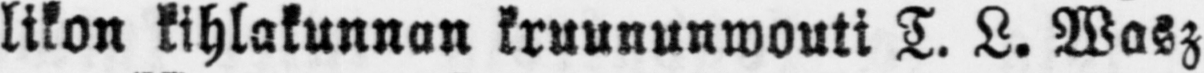likon kihlakunnan kruununwouti T. L. Wasz
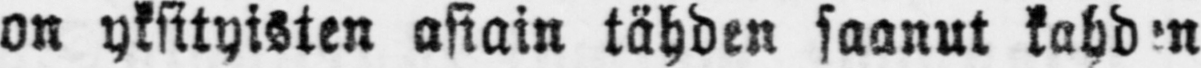on yksityisten asiain tähden saanut kahen
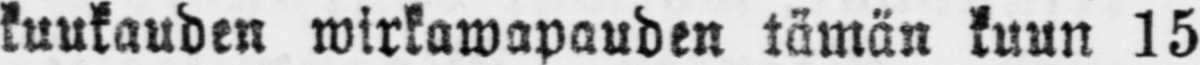kuukauden wirkawapauden tämän kuun 15
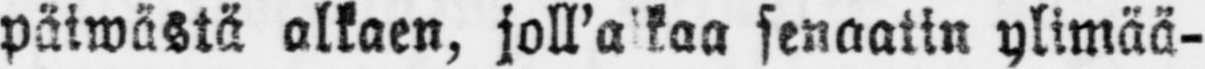päiwästä alkaen, joll'a kaa senaatin ylimää-
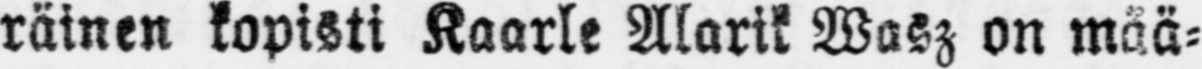räinen kopisti Kaarle Alarik Wasz on mää-
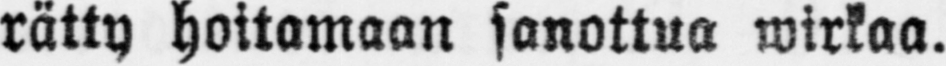rätty hoitamaan sanottua wirkaa.
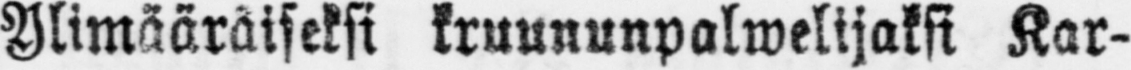Alimääräiseksi kruununpalwelijaksi Kar-
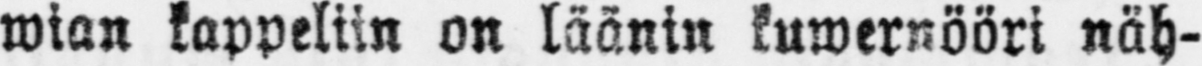wian kappeliin on läänin kuwernööri näh-
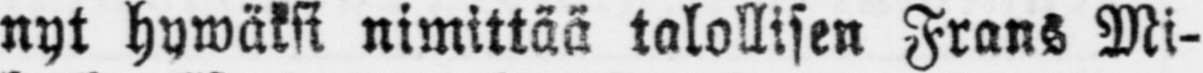nyt hywäksi nimittää talollisen Frans Mi-
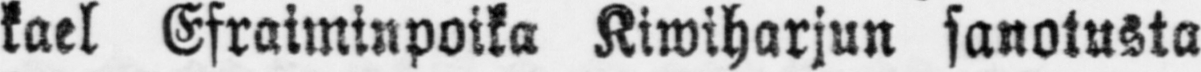kael Efraiminpoika Kiwiharjun sanotusta
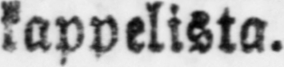kappelista.
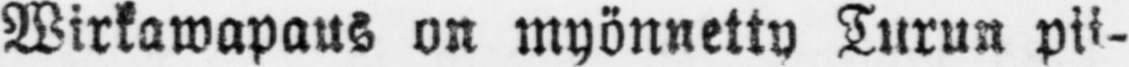Wirkawapaus on myönnetty Turun pii-
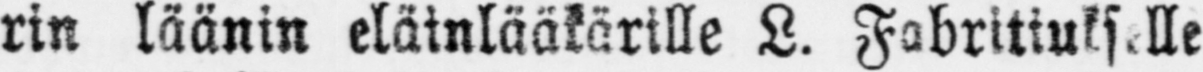rin läänin eläinlääkärille L. Fabritiukselle
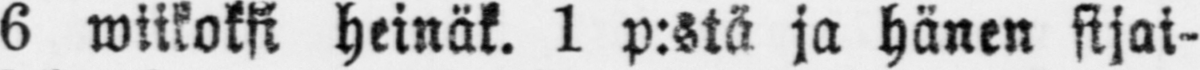6 wiikoksi heinäk. 1 p:stä ja hänen sijai-
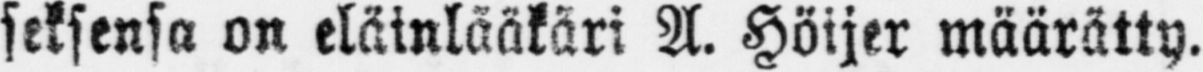srksensa on eläinlääkäri A. Höijer määrätty.
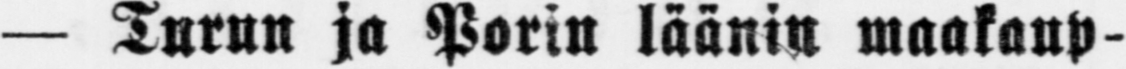— Turun ja Porin läänin maakaup-
